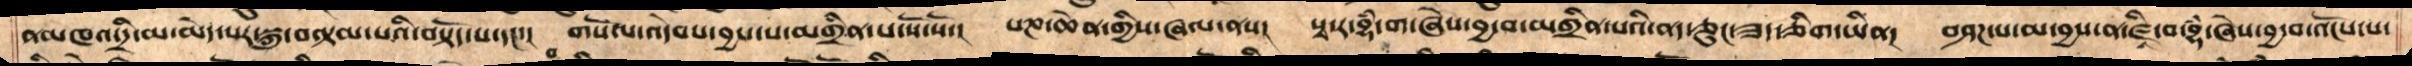ནམཁའ་དྲི་མ་མེད་པར་སྐུ་བལྟམ་པའི་བསྟོད་པ་དང།   གསོལ་འདེབས་བྱས་པས་མགྲིན་པ་སོ་སོ།   པཎ་ཆེན་གྱིས་ཞལ་ནས།  སྭ་ར་བྷཾ་ག་ཞེས་བྱ་བ་མགྲིན་པའི་ནད་ཅུང་ཟད་ཅིག་ཡིན།   བཤཌ་པ་མ་བྱས་ན་ཛཱི་བ་བྷཾ་ཞེས་བྱ་བ་འོངས་པ་
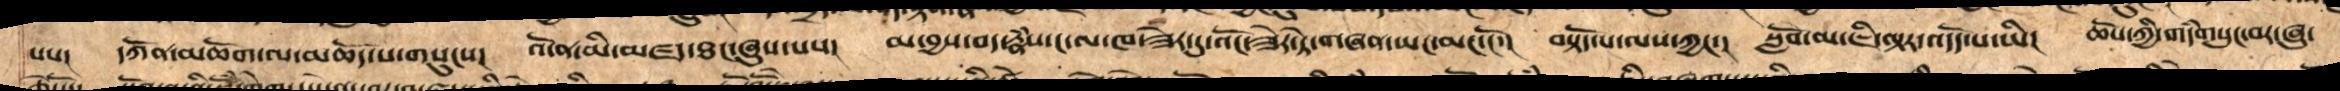པས།  དཀོན་མཆོག་ལ་མཆོད་པ་གསུངས།   འོ་ན་མི་མཛད་ཐང་ཞུས་པས།    མ་བྱས་བད་རྣཾས་ང་ལ་ཁ་ཟེར་དུ་འོང་ཟེར་ཏེ་གཞན་ཡང་མང་ངོ་།   བསྟོད་པ་ལས་ཀྱང་།    སློབ་མ་ཇི་ལྟར་འདོད་པ་ཡི།  ཆོས་ཀྱི་གདཾགསུང་བར་ཞུ་
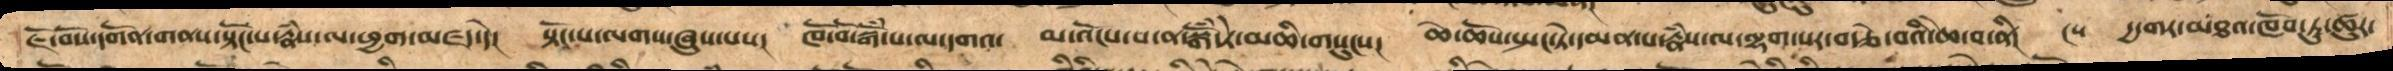ཇོ་བོས་དགོན་གནས་སྟོང་པ་རྣཾས་ལ་ཕྱག་མཛད་དེ།   སྟོང་པ་ལགས་ཞུས་པས།   ཁོ་བོ་སྒོཾ་པ་ལ་དགའ།   མ་འོངས་པ་ན་སྒོཾ་ཏེ་མཆི་གསུངས།   ཆེ་ཆོས་སྤང་ཏེ་དམན་པ་རྣཾས་ལ་ལྷག་པར་བརྩེ་བའི་ཆེ་བ་ནི།  ༨༥ དྱ་གར་མཐའ་ཁོབ་ཏུ་ཚུར་
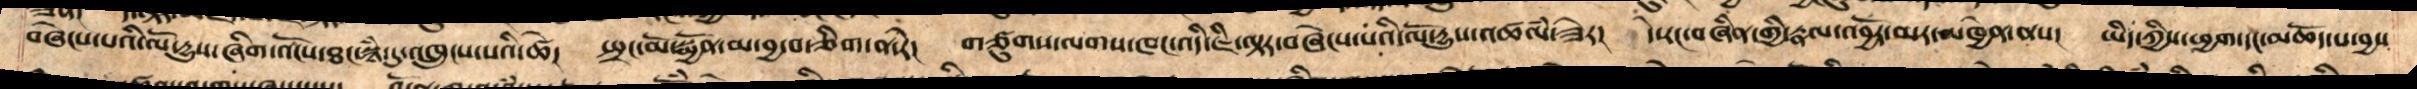བཞེངས་པའི་ལོ་དྱུས་ཞིག་འོངས་ཐང་སྙཾ་དུ་འཁྲུངས་པའི་ཚེ།   སྤྲང་མོ་སྨྱོན་མ་བྱ་བ་ཅིག་ན་རེ།   གཙུགས་ལགས་ཁང་འདི་ཇི་ལྟར་བཞེངས་པའི་ལོ་དྱུས་འཚལཾ་ཟེར།    དེ་རང་བཞིན་གྱི་རྣལ་འབྱོར་མར་མཁྱེན་ནས།   ཡིད་ཀྱིས་ཕྱག་དང་མཆོད་པ་བྱས
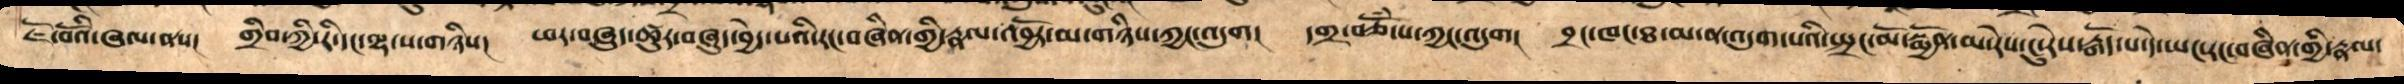ཇོ་བོའི་ཞལ་ནས།   གྲིབ་ཀྱི་རི་དང་ལྷ་ས་གཉིས།    ཕར་བཞུད་ཚུར་བཞུད་བྱེད་པའི་རང་བཞིན་གྱི་རྣལ་འབྱོར་མ་གཉིས་ཀྱང་འདུག    དགྲ་བཅོཾ་པ་ཀྱང་འདུག།   བྲང་ཁང་ཐ་མ་ན་འདུག་པའི་སྤྲང་མོ་སྨྱོན་མ་རེས་ངུ་རེས་རྒོད་པ་དེ་ཡང་རང་བཞིན་གྱི་རྣལ་
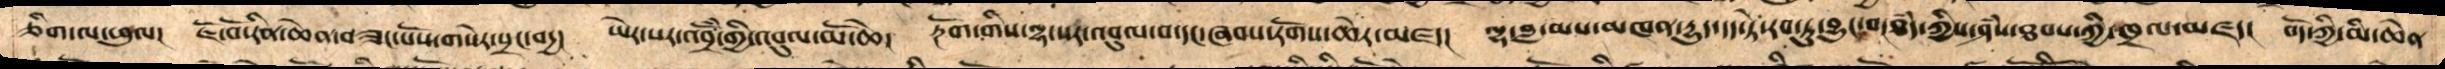ཅིག་ལ་ཕུལ།   ཇོ་བོ་རིན་ཆེན་བཟང་པོས་གསེར་སྲང་བདྱ།    ཡེར་པར་འབྲོཾ་གྱི་འབུལ་མོ་ཆེ།    རྔོག་གིས་ལྷ་སར་འབུལ་བ་དང་ཞབས་ཏོགས་ཆེར་མཛད།    ལྷ་བླ་མས་མཁན་དྱུད་དད་ཏེ་རབ་ཏུ་བྱུང་བ་ཐཾད་ཀྱིས་ཤཾས་ཐབས་ཀྱི་ཁྲལ་མཛད།  བོད་ཀྱི་མི་ཆེན
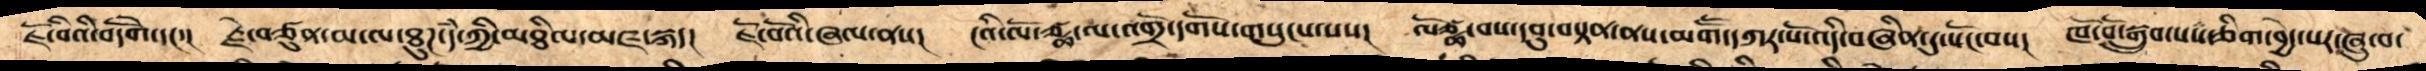ཇོ་བོའི་བདེགོ་དང་།   རྗེ་བཙུན་མ་ལ་ཐུཌ་དཾ་གྱི་མཐིལ་མཛད་སྐད།   ཇོ་བོའི་ཞལ་ནས།  ངའི་ལོ་ཙྪ་ལ་འགྲོ་དགོས་གསུངས་པས།   ལོཙྪ་བས་དབུ་བསྟན་ནས་མགཽ་དཀར་པོ་འདི་བཞིན་དུ་སོང་བས།  ཁོ་བོ་སྒྲུབ་པས་ཅིག་བྱེད་པར་ཞུ་བ་
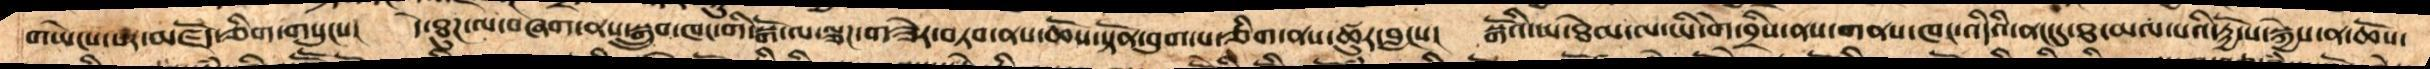གཡེངས་པར་མཛོད་ཅིག་གསུངས།    དེ་ཐུཌ་ལ་བཞག་ནས་སྒྲུབ་ཁང་གི་སྒོ་ལ་ལྕཌ་གཟེར་བཏབ་ནས་ཆོས་སྟོན་བུག་པ་ཅིག་ན་ཚུར་བླངས།   སྒོའི་ཡ་ཐེམ་ལ་ཡི་གེ་བྲིས་ནས་གནས་ཁང་འདིའི་ནང་དུ་ཐ་མལ་པའི་རྟྱོ་པ་སྐྱེས་ན་ཆོས་
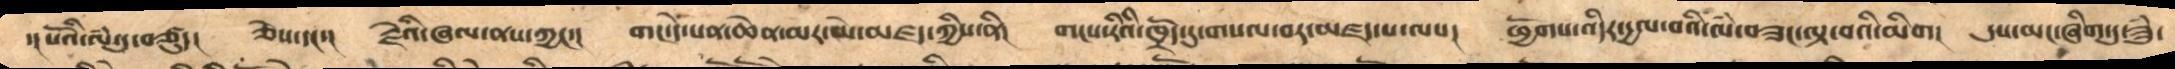དངཔོའི་ལཾ་དུ་འཙུད།   ཅེས་དང་།  རྗེའི་ཞལ་ནས་ཀྱང་།  གང་དེ་པན་ཆེན་མར་མེ་མཛད་ཀྱིས་ནི།  གངས་རིའི་ཁྲོད་དུ་གསལ་བར་མཛད་པ་ལས།  ཕྱོགས་འདིར་དྱལ་བའི་ལཾ་བཟང་ལྟ་བའི་མིག   དུས་མང་ཞིག་དུ་ཟུཾ་
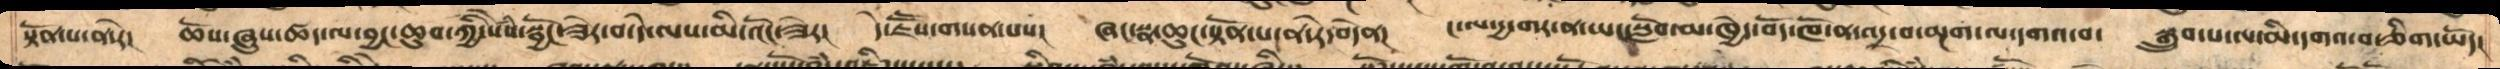སྟོན་པ་ན་རེ།  ཆོས་ཞུས་ཚད་ལ་བྱང་ཆུབ་ཀྱི་སེཾས་སྦྱོང་ཟེར་བ་དེ་ལས་མི་འོང་ཟེར།   དེ་ཇཽས་གསན་པས།  ཞང་སྣ་ཆུང་སྟོན་པ་ན་རེ་བདེན།  ང་ལ་དྱ་གར་ན་ཡང་སློབ་མ་ཁྱེད་བོད་ཁོ་ན་འདྲ་བ་མྔག་ལ་དགའ་བ།   སྒྲུབ་པ་ལ་མི་དགའ་བ་ཅིག་ཡོད།
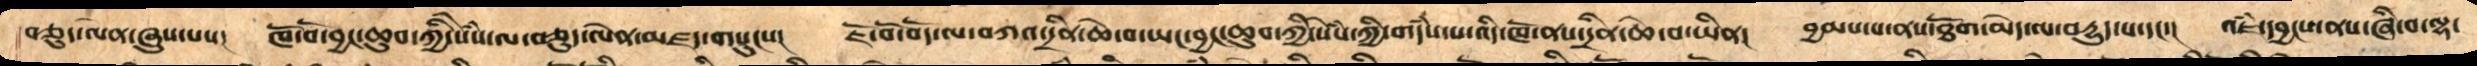བཅུད་ལེན་ཞུས་པས།   ཁོ་བོ་བྱང་ཆུབ་ཀྱི་སེཾས་ལ་བཅུད་ལེན་མཛད་གསུངས།   ཇོ་བོ་བོད་ལ་བཀའ་དྲིན་ཆེ་བ་ཡང་བྱང་ཆུབ་ཀྱི་སེཾས་ཀྱི་གདཾས་པ་འདི་ཁོ་ནས་དྲིན་ཆེ་བ་ཡིན།    བྱམས་པ་ནས་ཐོག་མེད་ལ་བདྱུད་པ་དང་།   འཇཾ་དབྱངས་ནས་ཞི་བ་ལྷ་
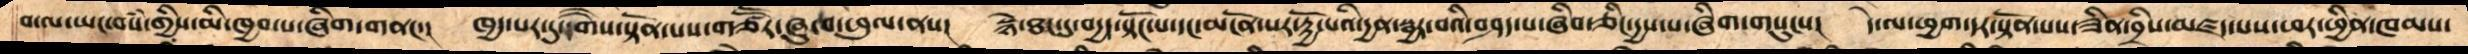བ་ལ་ཡང་བསཾ་གྱིས་མི་ཁྱབ་པ་ཞིག་གནང་།  ཁྱད་པར་དུ་དགཻས་སྟོན་པས་གཙཽར་ཞུ་བ་ཕུལ་ནས།  སྙེ་ཐང་དུ་བདྱད་སྟོང་པ་དང་མངོན་པར་རྟྱོ་པའི་དྱན་སྦྱར་བའི་བཤད་པ་ཞིབ་ཅིང་དྱས་པ་ཞིག་གསུངས།   དེ་ལ་ཕྱག་དར་སྟོན་པས་ཟིན་བྲིས་མཛད་པས་ཕར་ཕྱིན་ཁམས་
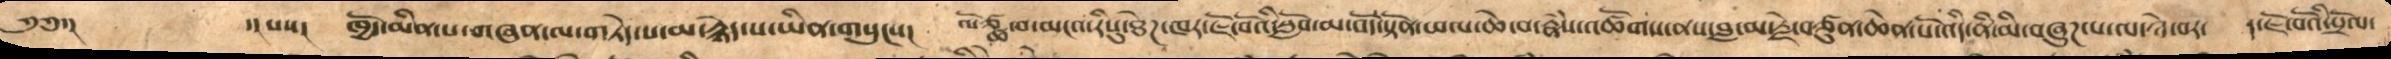༄༅་།           ་།པས།  ཁྱོད་མིན་པ་གཞན་ལ་གཏེད་ས་མ་རྙེད་པ་ཡིན་གསུངས།   ལོཙྪ་བ་མངའ་རིསུ་ཐེཌ་ཁར་ཇོ་བོའི་སློབ་མ་བོད་སྟོན་ཕལ་ཆེ་བ་རྣཾས་འཚོགས་ནས་བླ་མ་རྗེ་བཙུན་ཆེན་པོ་འདི་ནི་མི་བཞུཌ་པ་ལ་ཉེ་བར་  ད་ཇོ་བོའི་སྲོལ་
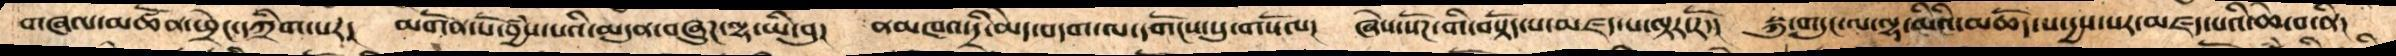གཞལ་མཚོན་ཕྲེང་དཀྲིག་པར།།   མགོན་པོ་བྱཾས་པའི་མདུན་བཞུཌ་ལྷ་ཡི་བུ།།  ནམཁའ་དྲི་མེད་བདག་ལ་དགོངས་སུ་གསོལ།།   ཞེས་སོཌ་གི་བསྟོད་པ་མཛད་པ་ལྟར་རོ་།།   སྐུ་གདུང་ལ་ལྷ་མིའི་མཆོད་པ་དྱས་པར་མཛད་པའི་ཆེ་བ་ནི།
